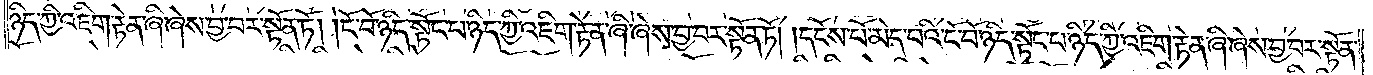ཉིད་ཀྱི་འཇིག་རྟེན་ཞི་ཞེས་བྱ་བར་སྟོན་ཏོ། །ངོ་བོ་ཉིད་སྟོང་པ་ཉིད་ཀྱི་འཇིག་རྟེན་ཞི་ཞེས་བྱ་བར་སྟོན་ཏོ། །དངོས་པོ་མེད་པའི་ངོ་བོ་ཉིད་སྟོང་པ་ཉིད་ཀྱི་འཇིག་རྟེན་ཞི་ཞེས་བྱ་བར་སྟོན་
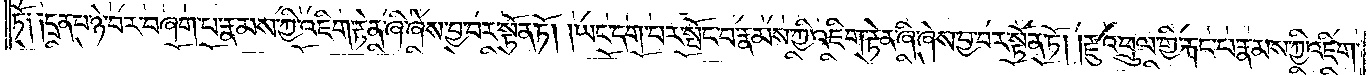ཏོ༑ ༑དྲན་པ་ཉེ་བར་བཞག་པ་རྣམས་ཀྱི་འཇིག་རྟེན་ཞི་ཞེས་བྱ་བར་སྟོན་ཏོ། །ཡང་དག་པར་སྤོང་བ་རྣམས་ཀྱི་འཇིག་རྟེན་ཞི་ཞེས་བྱ་བར་སྟོན་ཏོ། །རྫུ་འཕྲུལ་གྱི་རྐང་པ་རྣམས་ཀྱི་འཇིག་
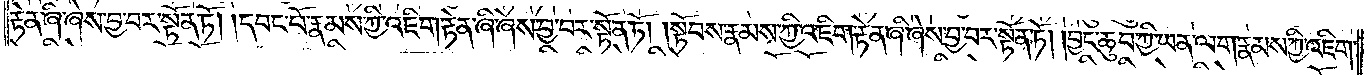རྟེན་ཞི་ཞེས་བྱ་བར་སྟོན་ཏོ། །དབང་པོ་རྣམས་ཀྱི་འཇིག་རྟེན་ཞི་ཞེས་བྱ་བར་སྟོན་ཏོ། །སྟོབས་རྣམས་ཀྱི་འཇིག་རྟེན་ཞི་ཞེས་བྱ་བར་སྟོན་ཏོ། །བྱང་ཆུབ་ཀྱི་ཡན་ལག་རྣམས་ཀྱི་འཇིག་
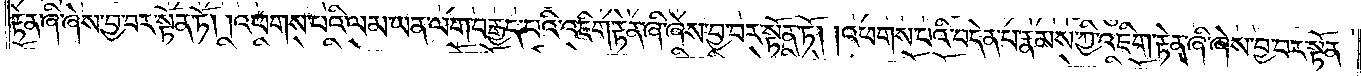རྟེན་ཞི་ཞེས་བྱ་བར་སྟོན་ཏོ། །འཕགས་པའི་ལམ་ཡན་ལག་བརྒྱད་པའི་འཇིག་རྟེན་ཞི་ཞེས་བྱ་བར་སྟོན་ཏོ། །འཕགས་པའི་བདེན་པ་རྣམས་ཀྱི་འཇིག་རྟེན་ཞི་ཞེས་བྱ་བར་སྟོན་
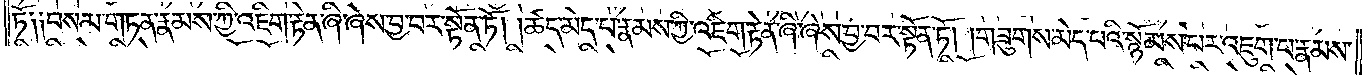ཏོ༑ ༑བསམ་གཏན་རྣམས་ཀྱི་འཇིག་རྟེན་ཞི་ཞེས་བྱ་བར་སྟོན་ཏོ། །ཚད་མེད་པ་རྣམས་ཀྱི་འཇིག་རྟེན་ཞི་ཞེས་བྱ་བར་སྟོན་ཏོ། །གཟུགས་མེད་པའི་སྙོམས་པར་འཇུག་པ་རྣམས་
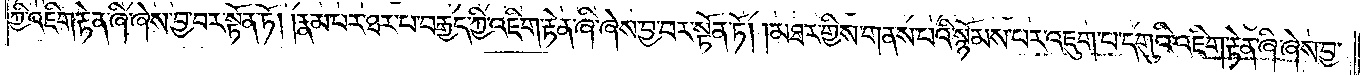ཀྱི་འཇིག་རྟེན་ཞི་ཞེས་བྱ་བར་སྟོན་ཏོ། །རྣམ་པར་ཐར་པ་བརྒྱད་ཀྱི་འཇིག་རྟེན་ཞི་ཞེས་བྱ་བར་སྟོན་ཏོ། །མཐར་གྱིས་གནས་པའི་སྙོམས་པར་འཇུག་པ་དགུའི་འཇིག་རྟེན་ཞི་ཞེས་བྱ་
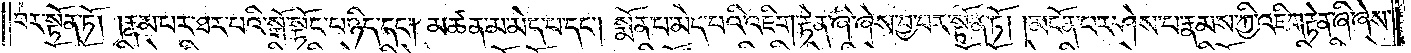བར་སྟོན་ཏོ། །རྣམ་པར་ཐར་པའི་སྒོ་སྟོང་པ་ཉིད་དང༌། མཚན་མ་མེད་པ་དང༌། སྨོན་པ་མེད་པའི་འཇིག་རྟེན་ཞི་ཞེས་བྱ་བར་སྟོན་ཏོ། །མངོན་པར་ཤེས་པ་རྣམས་ཀྱི་འཇིག་རྟེན་ཞི་ཞེས་
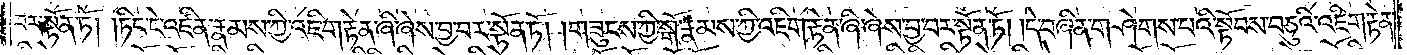བར་སྟོན་ཏོ། །ཏིང་ངེ་འཛིན་རྣམས་ཀྱི་འཇིག་རྟེན་ཞི་ཞེས་བྱ་བར་སྟོན་ཏོ། །གཟུངས་ཀྱི་སྒོ་རྣམས་ཀྱི་འཇིག་རྟེན་ཞི་ཞེས་བྱ་བར་སྟོན་ཏོ། །དེ་བཞིན་གཤེགས་པའི་སྟོབས་བཅུའི་འཇིག་རྟེན་
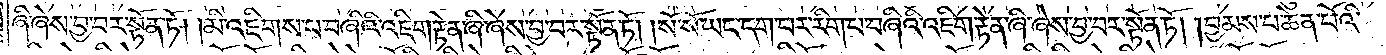ཞི་ཞེས་བྱ་བར་སྟོན་ཏོ། །མི་འཇིགས་པ་བཞིའི་འཇིག་རྟེན་ཞི་ཞེས་བྱ་བར་སྟོན་ཏོ། །སོ་སོ་ཡང་དག་པར་རིག་པ་བཞིའི་འཇིག་རྟེན་ཞི་ཞེས་བྱ་བར་སྟོན་ཏོ། །བྱམས་པ་ཆེན་པོའི་
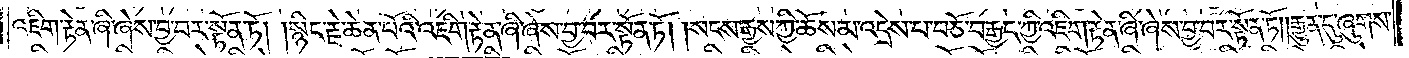འཇིག་རྟེན་ཞི་ཞེས་བྱ་བར་སྟོན་ཏོ། །སྙིང་རྗེ་ཆེན་པོའི་འཇིག་རྟེན་ཞི་ཞེས་བྱ་བར་སྟོན་ཏོ། །སངས་རྒྱས་ཀྱི་ཆོས་མ་འདྲེས་པ་བཅོ་བརྒྱད་ཀྱི་འཇིག་རྟེན་ཞི་ཞེས་བྱ་བར་སྟོན་ཏོ། །རྒྱུན་དུ་ཞུགས་
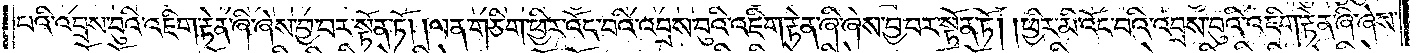པའི་འབྲས་བུའི་འཇིག་རྟེན་ཞི་ཞེས་བྱ་བར་སྟོན་ཏོ། །ལན་གཅིག་ཕྱིར་འོང་བའི་འབྲས་བུ་འཇིག་རྟེན་ཞི་ཞེས་བྱ་བར་སྟོན་ཏོ། །ཕྱིར་མི་འོང་བའི་འབྲས་བུའི་འཇིག་རྟེན་ཞི་ཞེས་
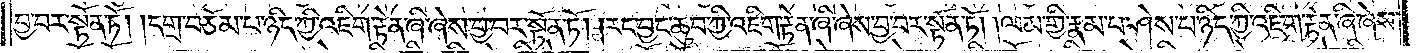བྱ་བར་སྟོན་ཏོ། །དགྲ་བཅོམ་པ་ཉིད་ཀྱི་འཇིག་རྟེན་ཞི་ཞེས་བྱ་བར་སྟོན་ཏོ། །རང་བྱང་ཆུབ་ཀྱི་འཇིག་རྟེན་ཞི་ཞེས་བྱ་བར་སྟོན་ཏོ། །ལམ་གྱི་རྣམ་པར་ཤེས་པ་ཉིད་ཀྱི་འཇིག་རྟེན་ཞི་ཞེས་
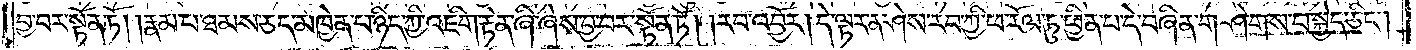བྱ་བར་སྟོན་ཏོ། །རྣམ་པ་ཐམས་ཅད་མཁྱེན་པ་ཉིད་ཀྱི་འཇིག་རྟེན་ཞི་ཞེས་བྱ་བར་སྟོན་ཏོ། །རབ་འབྱོར། དེ་ལྟར་ན་ཤེས་རབ་ཀྱི་ཕ་རོལ་ཏུ་ཕྱིན་པ་དེ་བཞིན་གཤེགས་པ་སྐྱེད་ཅིང༌།
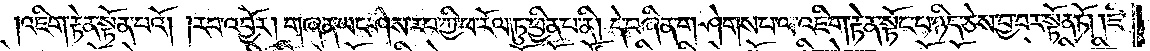འཇིག་རྟེན་སྟོན་པའོ། །རབ་འབྱོར། གཞན་ཡང་ཤེས་རབ་ཀྱི་ཕ་རོལ་ཏུ་ཕྱིན་པ་ནི།  དེ་བཞིན་གཤེགས་པ་ལ་འཇིག་རྟེན་སྟོང་པ་ཉིད་ཅེས་བྱ་བར་སྟོན་ཏོ། །ཇི་
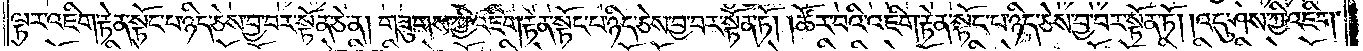ལྟར་འཇིག་རྟེན་སྟོང་པ་ཉིད་ཅེས་བྱ་བར་སྟོན་ཅེ་ན། གཟུགས་ཀྱི་འཇིག་རྟེན་སྟོང་པ་ཉིད་ཅེས་བྱ་བར་སྟོན་ཏོ། །ཚོར་བའི་འཇིག་རྟེན་སྟོང་པ་ཉིད་ཅེས་བྱ་བར་སྟོན་ཏོ། །འདུ་ཤེས་ཀྱི་འཇིག་
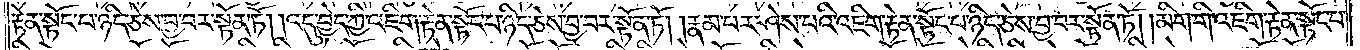རྟེན་སྟོང་པ་ཉིད་ཅེས་བྱ་བར་སྟོན་ཏོ། །འདུ་བྱེད་ཀྱི་འཇིག་རྟེན་སྟོང་པ་ཉིད་ཅེས་བྱ་བར་སྟོན་ཏོ། །རྣམ་པར་ཤེས་པའི་འཇིག་རྟེན་སྟོང་པ་ཉིད་ཅེས་བྱ་བར་སྟོན་ཏོ། །མིག་གི་འཇིག་རྟེན་སྟོང་པ་
